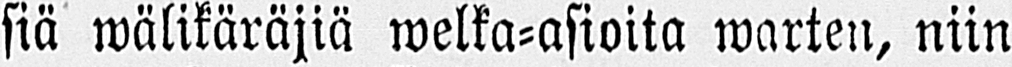siä wälikäräjiä welka-asioita warten, niin
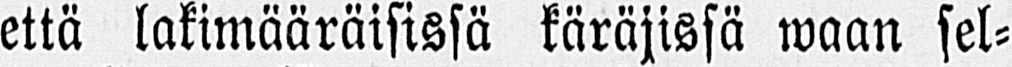että lakimääräisissä käräjissä waan sel-
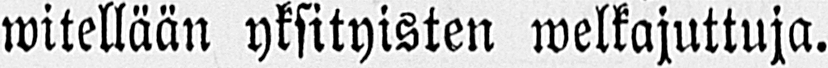witellään yksityisten welkajuttuja.
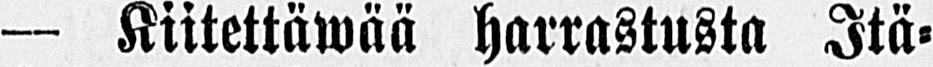— Kiitettäwää harrastusta Itä-
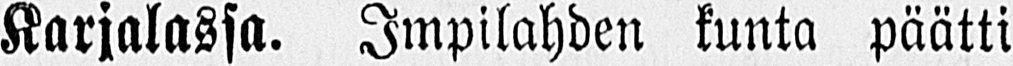Karjalassa. Impilahden kunta päätti
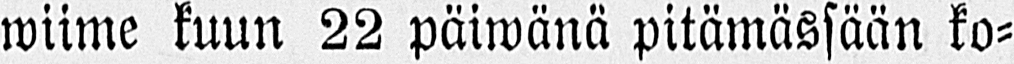wiime kuun 22 päiwänä pitämässään ko-
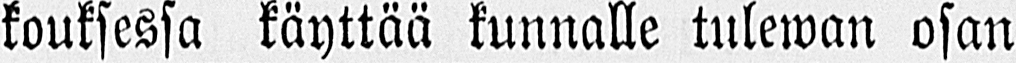kouksessa käyttää kunnalle tulewan osan
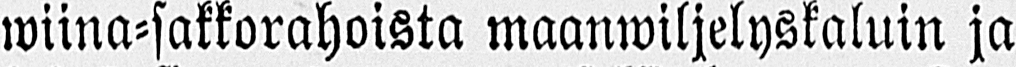wiina-sakkorahoista maanwiljelyskaluin ja
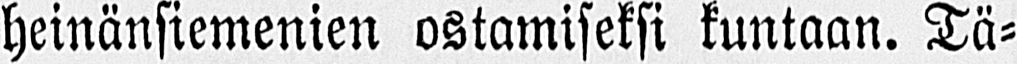heinänsiemenien ostamiseksi kuntaan. Tä-
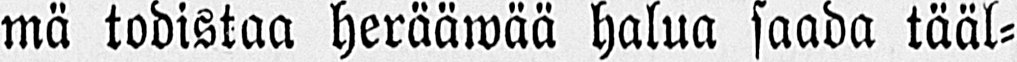mä todistaa herääwää halua saada tääl-
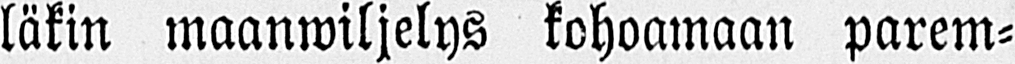läkin maanwiljelys kohoamaan parem-
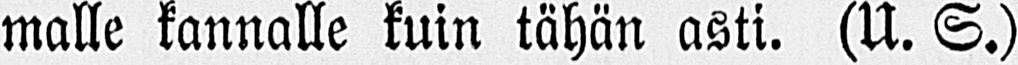malle kannalle kuin tähän asti. (U. S.)
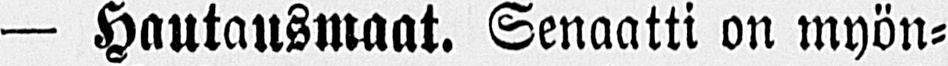— Hautausmaat. Senaatti on myön-
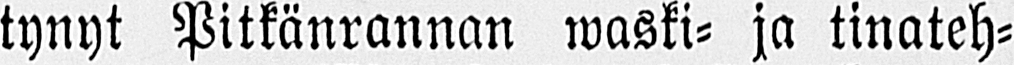tynyt Pitkänrannan waski- ja tinateh-
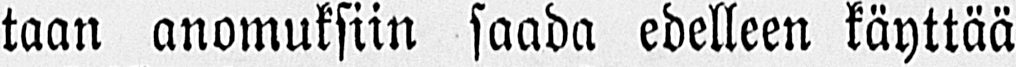taan anomuksiin saada edelleen käyttää
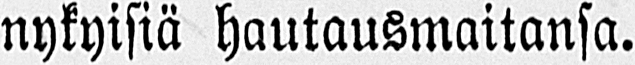nykyisiä hautausmaitansa.
